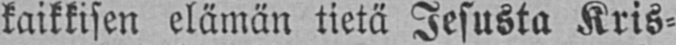kaikkisen elämän tietä Jesusta Kris-
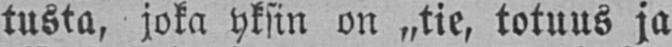tusta, joka yksin on „tie, totuus ja
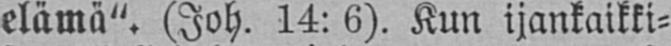elämä". (Joh. 14: 6). Kun ijankaikki-
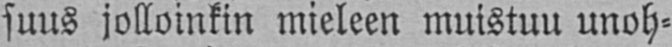suus jolloinkin mieleen muistuu unoh-
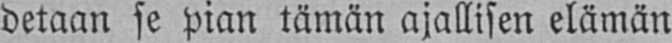detaan se pian tämän ajallisen elämän
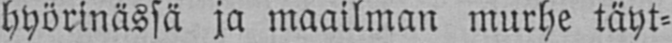hyörinässä ja maailman murhe täyt-
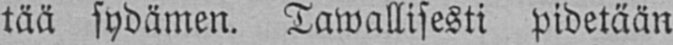tää sydämen. Tawallisesti pidetään
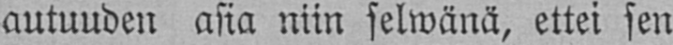autuuden asia niin selwänä, ettei sen
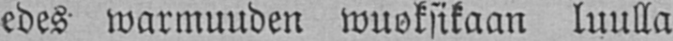edes warmuuden wuoksikaan luulla
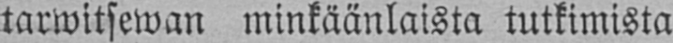tarwitsewan minkäänlaista tutkimista
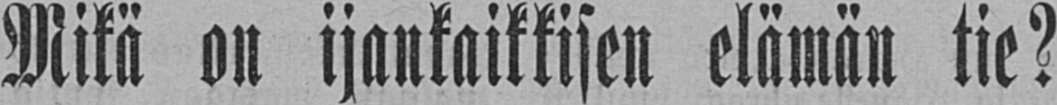Mikä on ijankaikkisen elämän tie?
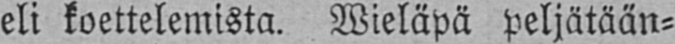eli koettelemista. Wieläpä peljätään-
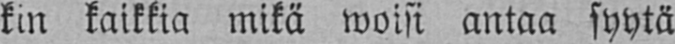kin kaikkia mikä wöisi antaa syytä
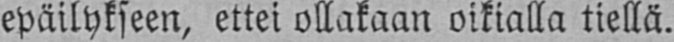epäilykseen, ettei ollakaan oikialla tiellä.
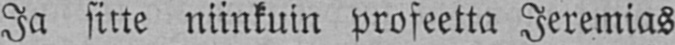Ja sitte niinkuin profeetta Jeremias
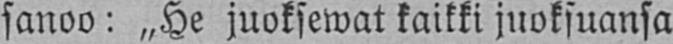sanoo: „He juoksewat kaikki juoksuansa
